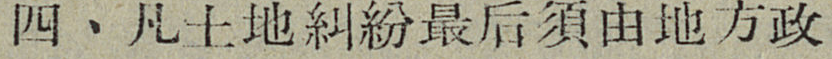四、凡土地糾紛最后須由地方政
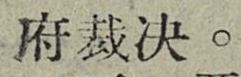府裁决。
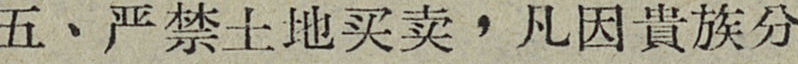五、严禁土地买卖，凡因貴族分
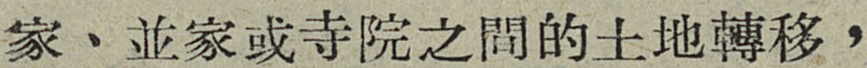家、並家或寺院之間的土地轉移，
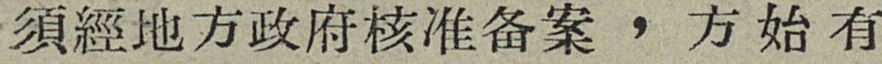須經地方政府核准备案，方始有
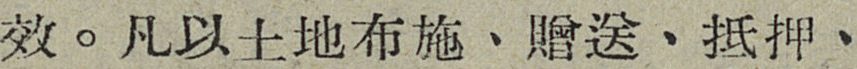效。凡以土地布施、贈送、抵押、
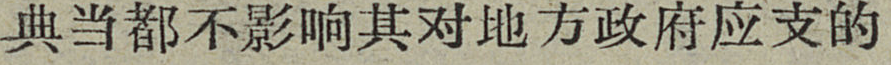典当都不影响其对地方政府应支的
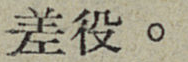差役。
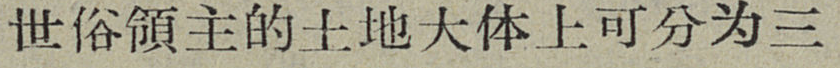世俗領主的土地大体上可分为三
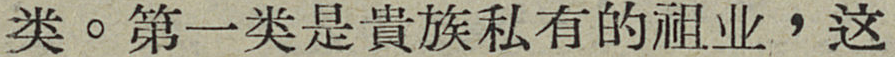类。第一类是貴族私有的祖业，这
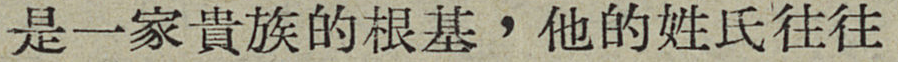是一家貴族的根基，他的姓氏往往
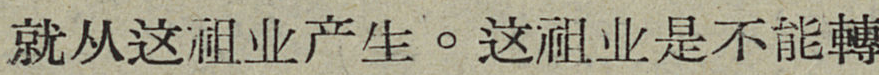就从这祖业产生。这祖业是不能轉
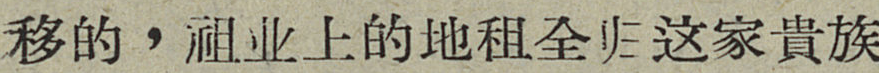移的，祖业上的地租全归这家貴族
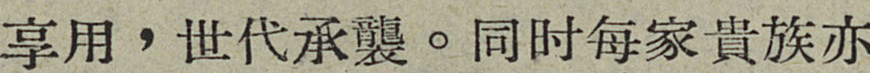享用，世代承襲。同时每家貴族亦
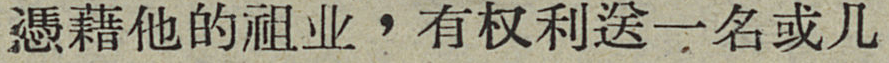憑藉他的祖业，有权利送一名或几
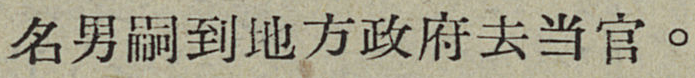名男嗣到地方政府去当官。
